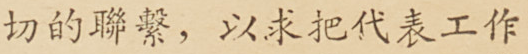切的聯繫，以求把代表工作
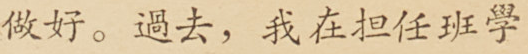做好。過去，我在担任班學
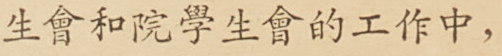生會和院學生會的工作中，
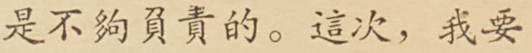是不夠負責的。這次，我要
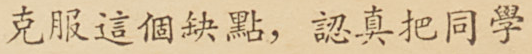克服這個缺點，認真把同學
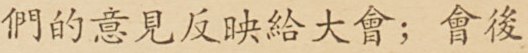們的意見反映給大會；會後
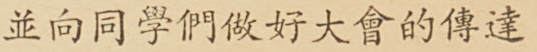並向同學們做好大會的傳達
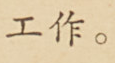工作。
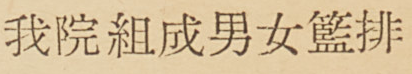我院組成男女籃排
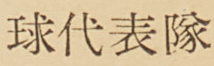球代表隊
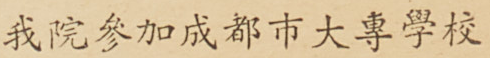我院參加成都市大專學校
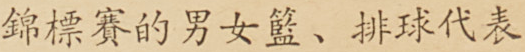錦標賽的男女籃、排球代表
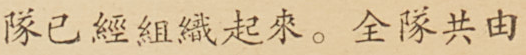隊已經組織起來。全隊共由
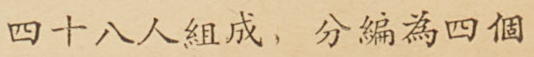四十八人組成，分編為四個
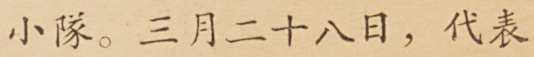小隊。三月二十八日，代表
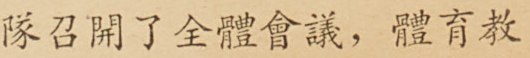隊召開了全體會議，體育教
